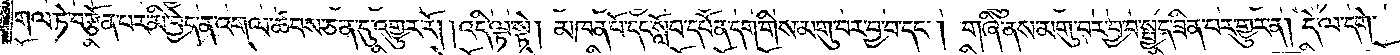གལ་ཏེ་བརྩོན་པར་མི་བྱེད་ན་འགལ་ཚབས་ཅན་དུ་འགྱུར་རོ། །འདི་ལྟ་སྟེ། མཁན་པོ་དང་སློབ་དཔོན་དག་གིས་མགུ་བར་བྱ་བ་དང༌། གཞི་ནས་མགུ་བར་བྱ་བ་སྤྱད་ཟིན་པར་གྱུར་ན། དེ་ལ་དགེ་
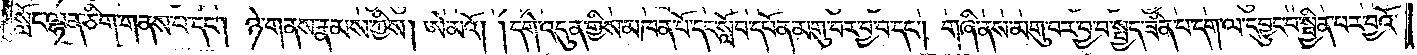སློང་ལྷན་ཅིག་གནས་པ་དང༌། ཉེ་གནས་རྣམས་ཀྱིས། ཨེ་མའོ། །དགེ་འདུན་གྱིས་མཁན་པོ་དང་སློབ་དཔོན་མགུ་བར་བྱ་བ་དང༌། གཞི་ནས་མགུ་བར་བྱ་བ་སྤྱད་ཟིན་པ་དག་ལ་དབྱུང་བ་སྦྱིན་པར་བྱའོ་
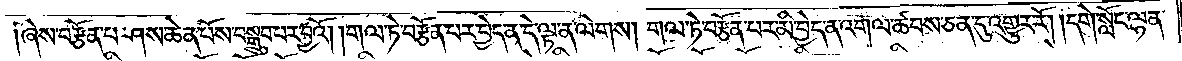ཞེས་བརྩོན་པ་ཤས་ཆེན་པོས་བསྒྲུབ་པར་བྱའོ། །གལ་ཏེ་བརྩོན་པར་བྱེད་ན་དེ་ལྟ་ན་ལེགས། གལ་ཏེ་བརྩོན་པར་མི་བྱེད་ན་འགལ་ཚབས་ཅན་དུ་འགྱུར་རོ། །དགེ་སློང་ལྷན་
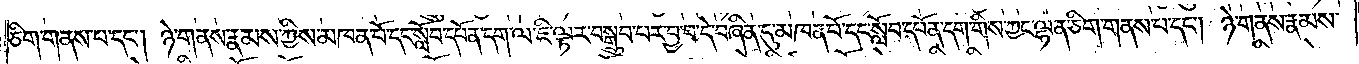ཅིག་གནས་པ་དང༌། ཉེ་གནས་རྣམས་ཀྱིས་མཁན་པོ་དང་སློབ་དཔོན་དག་ལ་ཇི་ལྟར་བསྒྲུབ་པར་བྱ་བ་དེ་བཞིན་དུ་མཁན་པོ་དང་སློབ་དཔོན་དག་གིས་ཀྱང་ལྷན་ཅིག་གནས་པ་དང༌། ཉེ་གནས་རྣམས་
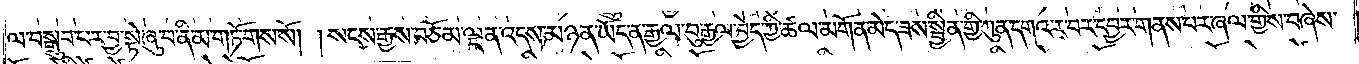ལ་བསྒྲུབ་པར་བྱ་སྟེ་ཞུ་བ་ནི་མ་གཏོགས་སོ། །སངས་རྒྱས་བཅོམ་ལྡན་འདས་མཉན་ཡོད་ན་རྒྱལ་བུ་རྒྱལ་བྱེད་ཀྱི་ཚལ་མགོན་མེད་ཟས་སྦྱིན་གྱི་ཀུན་དགའ་ར་བར་དབྱར་གནས་པར་ཞལ་གྱིས་བཞེས་
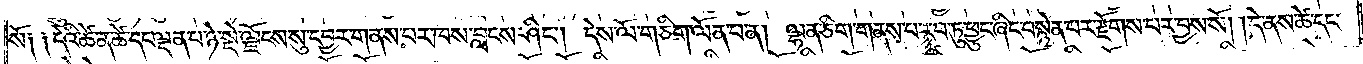སོ༑ ༑དེའི་ཚེ་ན་ཚེ་དང་ལྡན་པ་ཉེ་སྡེ་ལྗོངས་སུ་དབྱར་གནས་པར་ཁས་བླངས་ཤིང༌། དེས་ལོ་གཅིག་ལོན་པ་ན། ལྷན་ཅིག་གནས་པ་རབ་ཏུ་ཕྱུང་ཞིང་བསྙེན་པར་རྫོགས་པར་བྱས་སོ། །དེ་ནས་ཚེ་དང་
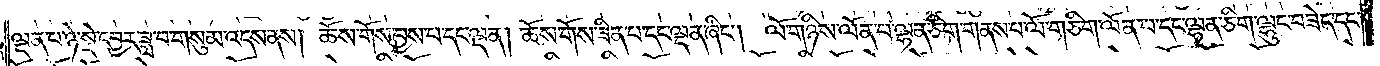ལྡན་པ་ཉེ་སྡེ་དབྱར་ཟླ་བ་གསུམ་འདས་ནས། ཆོས་གོས་བྱས་པ་དང་ལྡན། ཆོས་གོས་ཟིན་པ་དང་ལྡན་ཞིང༌། ལོ་གཉིས་ལོན་པ་ལྷན་ཅིག་གནས་པ་ལོ་གཅིག་ལོན་པ་དང་ལྷན་ཅིག་ལྷུང་བཟེད་དང་
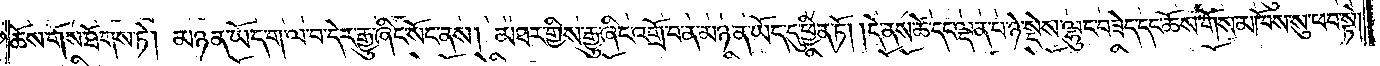ཆོས་གོས་ཐོགས་ཏེ། མཉན་ཡོད་ག་ལ་བ་དེར་རྒྱུ་ཞིང་སོང་ནས། མཐར་གྱིས་རྒྱུ་ཞིང་འགྲོ་བ་ན་མཉན་ཡོད་དུ་ཕྱིན་ཏོ། །དེ་ནས་ཚེ་དང་ལྡན་པ་ཉེ་སྡེས་ལྷུང་བཟེད་དང་ཆོས་གོས་མཁོས་སུ་ཕབ་སྟེ།
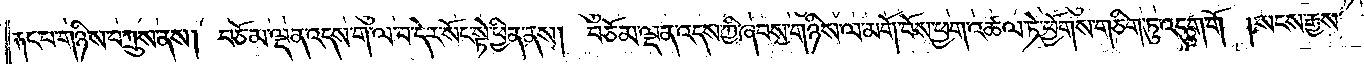རྐང་པ་གཉིས་བཀྲུས་ནས། བཅོམ་ལྡན་འདས་ག་ལ་བ་དེར་སོང་སྟེ་ཕྱིན་ནས། བཅོམ་ལྡན་འདས་ཀྱི་ཞབས་གཉིས་ལ་མགོ་པོས་ཕྱག་འཚལ་ཏེ་ཕྱོགས་གཅིག་ཏུ་འདུག་གོ །སངས་རྒྱས་
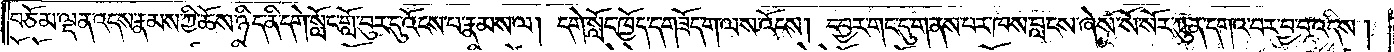བཅོམ་ལྡན་འདས་རྣམས་ཀྱི་ཆོས་ཉིད་ནི་དགེ་སློང་གློ་བུར་དུ་འོངས་པ་རྣམས་ལ། དགེ་སློང་ཁྱོད་ད་གཟོད་ག་ལས་འོངས། དབྱར་གང་དུ་གནས་པར་ཁས་བླངས་ཞེས་སོ་སོར་ཀུན་དགའ་བར་བྱ་བ་འདིས།
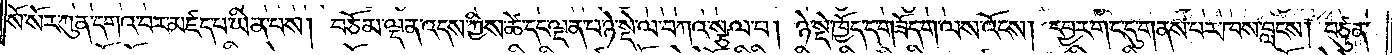སོ་སོར་ཀུན་དགའ་བར་མཛད་པ་ཡིན་པས། བཅོམ་ལྡན་འདས་ཀྱིས་ཚེ་དང་ལྡན་པ་ཉེ་སྡེ་ལ་བཀའ་སྩལ་པ། ཉེ་སྡེ་ཁྱོད་ད་གཟོད་ག་ལས་འོངས། དབྱར་གང་དུ་གནས་པར་ཁས་བླངས། བཙུན་
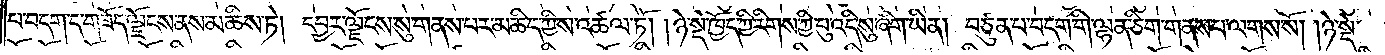པ་བདག་ད་གཟོད་ལྗོངས་ནས་མཆིས་ཏེ། དབྱར་ལྗོངས་སུ་གནས་པར་མཆིད་ཀྱིས་འཚལ་ཏོ། །ཉེ་སྡེ་ཁྱོད་ཀྱི་རིགས་ཀྱི་བུ་འདི་སུ་ཞིག་ཡིན། བཙུན་པ་བདག་གི་ལྷན་ཅིག་གནས་པ་ལགས་སོ། །ཉེ་སྡེ་
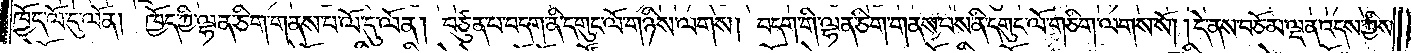ཁྱོད་ལོ་དུ་ལོན། ཁྱོད་ཀྱི་ལྷན་ཅིག་གནས་པ་ལོ་དུ་ལོན། བཙུན་པ་བདག་ནི་དགུང་ལོ་གཉིས་ལགས། བདག་གི་ལྷན་ཅིག་གནས་པས་ནི་དགུང་ལོ་གཅིག་ལགས་སོ། །དེ་ནས་བཅོམ་ལྡན་འདས་ཀྱིས་
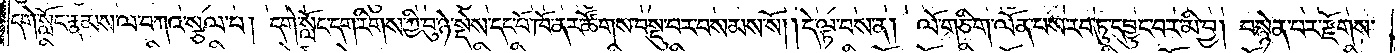དགེ་སློང་རྣམས་ལ་བཀའ་སྩལ་པ། དགེ་སློང་དག་རིགས་ཀྱི་བུ་ཉེ་སྡེས་དང་པོ་ཁོ་ནར་ཚོགས་བསྡུ་བར་བསམས་སོ༎དེ་ལྟ་བས་ན། ལོ་གཅིག་ལོན་པས་རབ་ཏུ་དབྱུང་བར་མི་བྱ། བསྙེན་པར་རྫོགས་
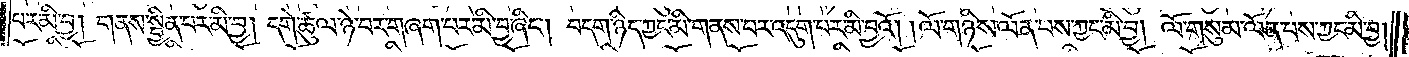པར་མི་བྱ། གནས་སྦྱིན་པར་མི་བྱ། དགེ་ཚུལ་ཉེ་བར་གཞག་པར་མི་བྱ་ཞིང༌། བདག་ཉིད་ཀྱང་མི་གནས་པར་འདུག་པར་མི་བྱའོ། །ལོ་གཉིས་ལོན་པས་ཀྱང་མི་བྱ། ལོ་གསུམ་ལོན་པས་ཀྱང་མི་བྱ།
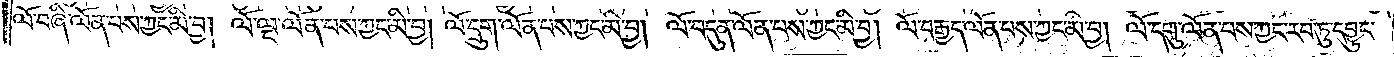ལོ་བཞི་ལོན་པས་ཀྱང་མི་བྱ། ལོ་ལྔ་ལོན་པས་ཀྱང་མི་བྱ། ལོ་དྲུག་ལོན་པས་ཀྱང་མི་བྱ། ལོ་བདུན་ལོན་བས་ཀྱང་མི་བྱ། ལོ་བརྒྱད་ལོན་པས་ཀྱང་མི་བྱ། ལོ་དགུ་ལོན་པས་ཀྱང་རབ་ཏུ་དབྱུང་
